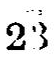23
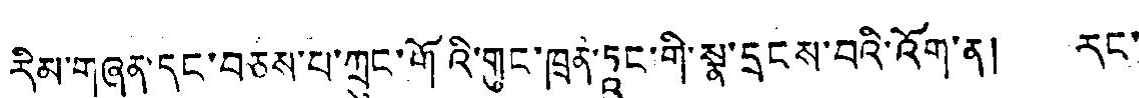རིམ་གཞན་དང་བཅས་པ་ཀྲུང་གོའི་གུང་ཁྲན་ཏཱང་གི་སྣ་དྲངས་བའི་འོག་ན། རང་
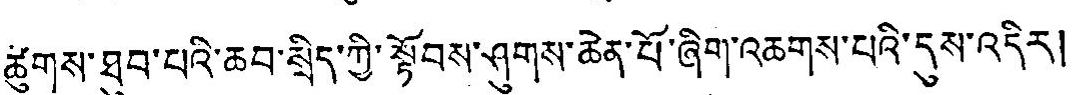ཚུགས་ཐུབ་པའི་ཆབ་སྲིད་ཀྱི་སྟོབས་ཤུགས་ཆེན་པོ་ཞིག་འཆགས་པའི་དུས་འདིར།
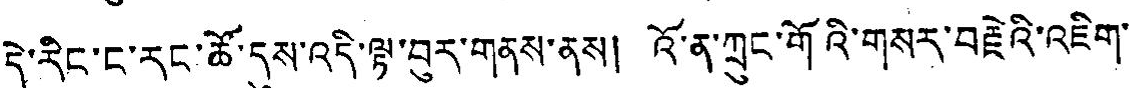དེ་རིང་ང་རང་ཚོ་དུས་འདི་ལྟ་བུར་གནས་ནས། འོ་ན་ཀྲུང་གོའི་གསར་བརྗེའི་འཇིག་
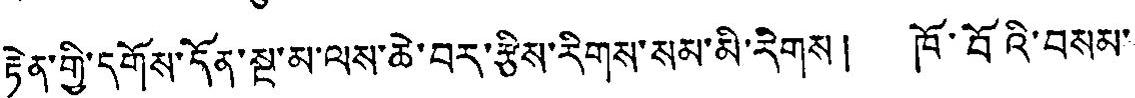རྟེན་གྱི་དགོས་དོན་སྔ་མ་ལས་ཆེ་བར་རྩིས་རིགས་སམ་མི་རིགས། ཁོ་བོའི་བསམ་
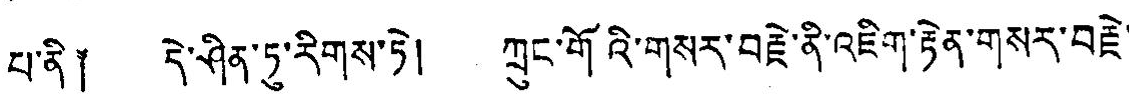པ་ནི༐ དེ་ཤིན་ཏུ་རིགས་ཏེ། ཀྲུང་གོའི་གསར་བརྗེ་ནི་འཇིག་རྟེན་གསར་བརྗེ་
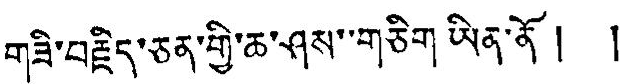བཟི་བརྗིད་ཅན་གྱི་ཆ་ཤས་གཅིག་ཡིན་ནོ། །
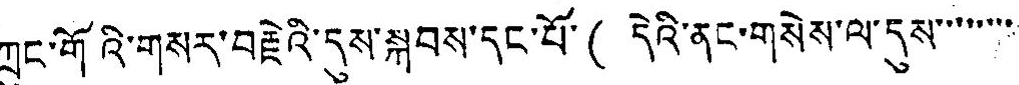ཀྲུང་གོའི་གསར་བརྗེའི་དུས་སྐབས་དང་པོ་( དེའི་ནང་གསེས་ལ་དུས་་་་་་་་
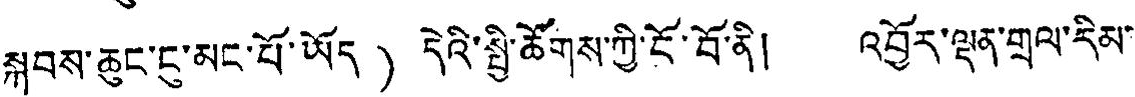སྐབས་ཆུང་ངུ་མང་པོ་ཡོད ) དེའི་སྤྱི་ཚོགས་ཀྱི་ངོ་བོ་ནི། འབྱོར་ལྡན་གྲལ་རིམ་
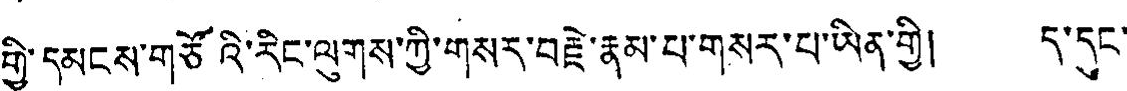གྱི་དམངས་གཙོའི་རིང་ལུགས་ཀྱི་གསར་བརྗེ་རྣམ་པ་གསར་པ་ཡིན་གྱི། ད་དུང་
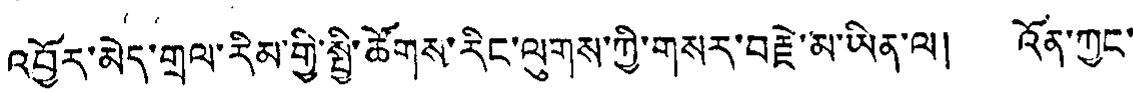འབྱོར་མེད་གྲལ་རིམ་གྱི་སྤྱི་ཚོགས་རིང་ལྒུས་ཀྱི་གསར་བརྗེ་མ་ཡིན་ལ། འོན་ཀྱང་
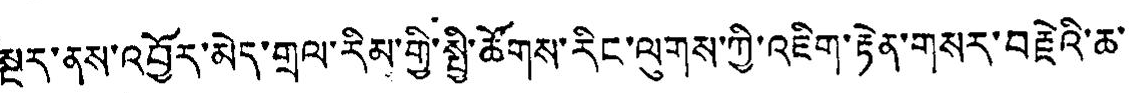སྔར་ནས་འབྱོར་མེད་གྲལ་རིམ་གྱི་སྤྱི་ཚོགས་རིང་ལུགས་ཀྱི་འཇིག་རྟེན་གསར་བརྗེའི་ཆ་
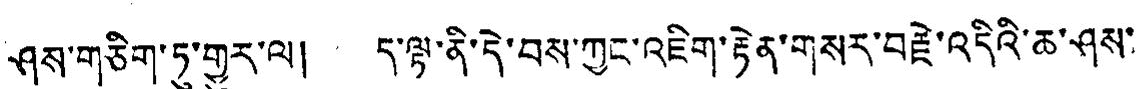ཤས་གཅིག་ཏུ་གྱུར་ལ། ད་ལྟ་ནི་དེ་བས་ཀྱང་འཇིག་རྟེན་གསྲ་བརྗེ་འདིའི་ཆ་ཤས་
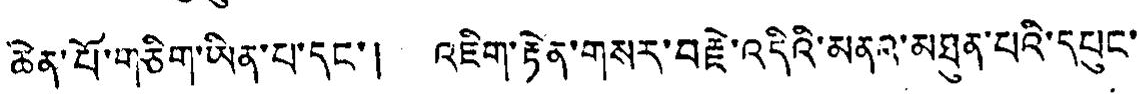ཆེན་པོ་གཅིག་ཡིན་པ་དང་། འཇིག་ཏེན་གསར་བརྗེ་འདིའི་མནའ་མཐུན་པའི་དཔུང་
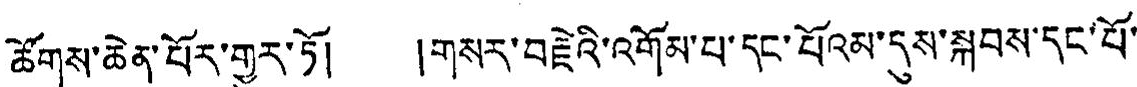ཚོགས་ཆེན་པོར་གྱུར་ཏོ། །གསར་བརྗེའི་འགོམ་པ་དང་པོའམ་དུས་སྐབས་དང་པོ་
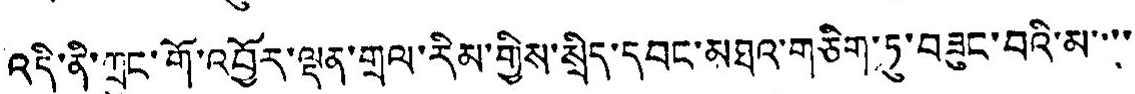འདི་ནི་ཀྲུང་གོ་འབྱོར་ལྡན་གྲལ་རིམ་གྱསི་སྲིད་དབང་མཐའ་གཅིག་ཏུ་བཟུང་བའི་མ་་་་
